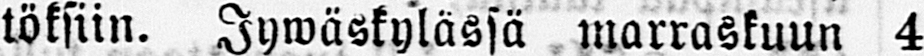töksiin. Jywäskylässä marraskuun 4
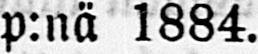p:nä 1884.
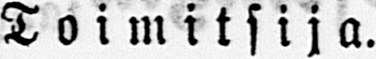Toimitsija.
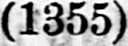(1355)
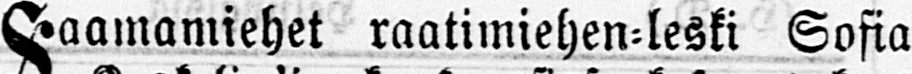Saamamiehet raatimiehen-leski Sofia
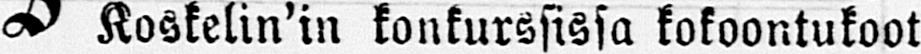Koskelin'in konkurssissa kokoontukoot
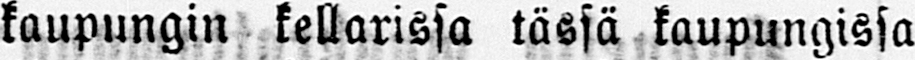kaupungin kellarissa tässä kaupungissa
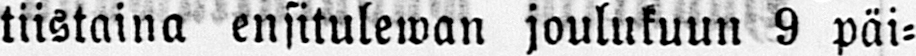tiistaina ensitulewan joulukuun 9 päi-
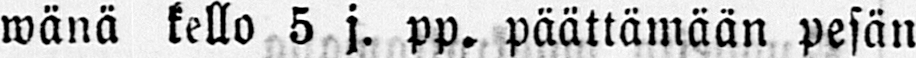wänä kello 5 j. pp. päättämään pesän
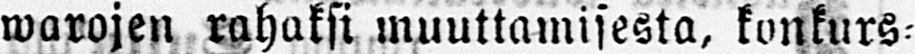warojen rahaksi muuttamisesta, konkurs-
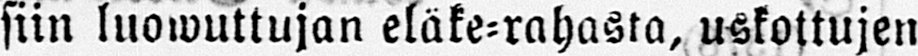siin luowuttujan eläke-rahasta, uskottujen
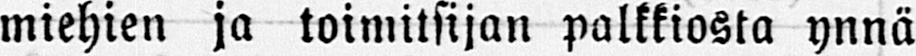miehien ja toimitsijan palkkiosta ynnä
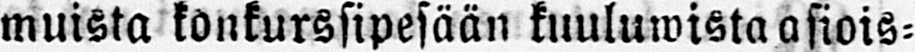muista konkurssipesään kuuluwista asiois-
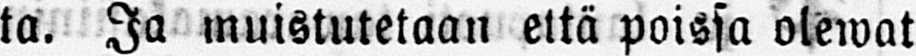ta. Ja muistutetaan että poissa olewat
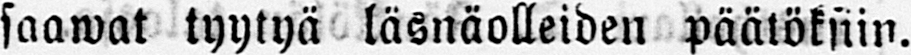saawat tyytyä läsnäolleiden päätöksiin.
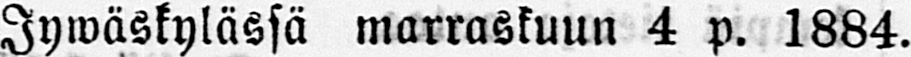Jywäskylässä marraskuun 4 p. 1884.
